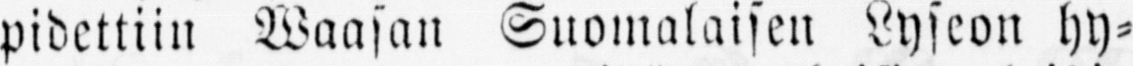pidettiin Waasan Suomalaisen Lyseon hy-
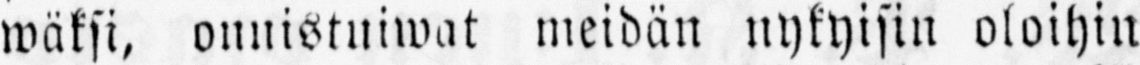wäksi, onnistuiwat meidän nykyisin oloihin
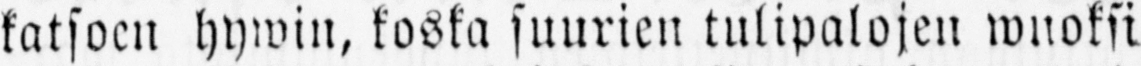katsoen hywin, koska suurien tulipalojen wuoksi
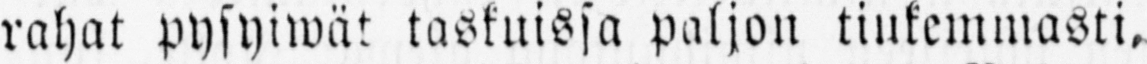rahat pysyiwät taskuissa paljon tiukemmasti.
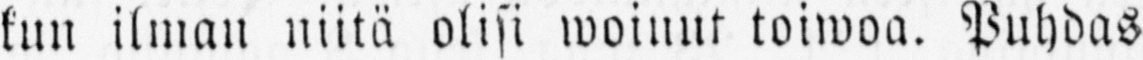kun ilman niitä olisi woinut toiwoa. Puhdas
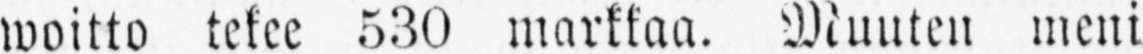woitto tekee 530 markkaa. Muuten meni
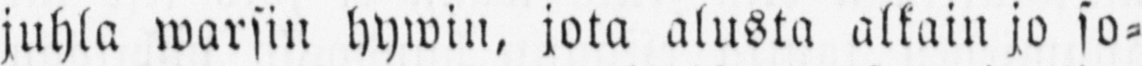juhla warsin hywin, jota alusta alkain jo so-
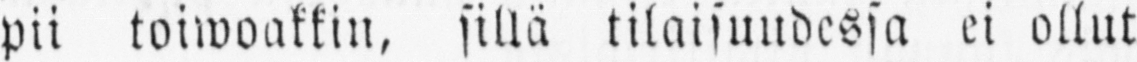pii toiwoakkin, sillä tilaisuudessa ei ollut
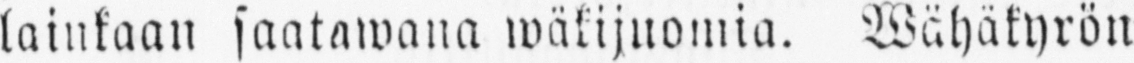lainkaan saatawana wäkijuomia. Wähakyrön
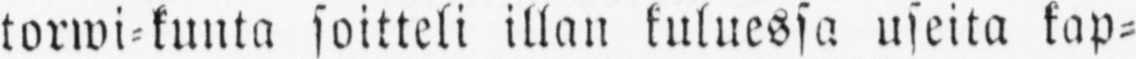torwi-kunta soitteli illan kuluessa useita kap-
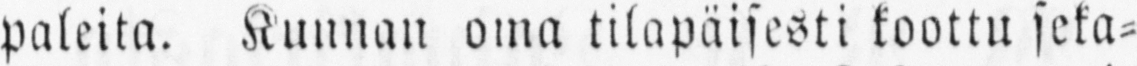paleita. Kunnan oma tilapäisesti koottu seka-
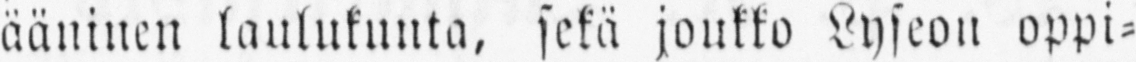ääninen laulukunta, sekä joukko Lyseon oppi-
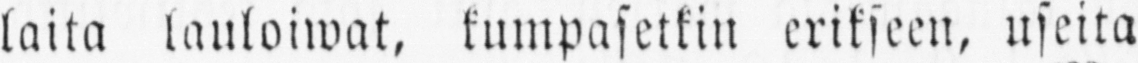laita lauloiwat, kumpasetkin erikseen, useita
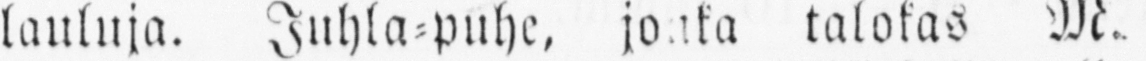lauluja. Juhla-puhe, jonka talokas M.
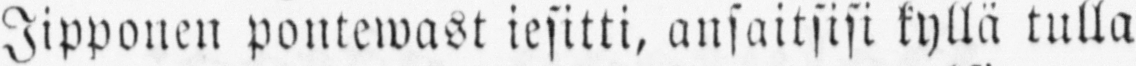Jipponen pontewast iesitti, ansaitsisi kyllä tulla
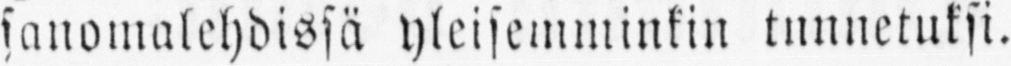sanomalehdissä yleisemminkin tunnetuksi.
